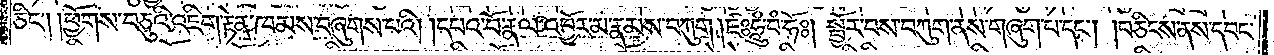ཅིང༌། །ཕྱོགས་བཅུའི་འཇིག་རྟེན་ཁམས་བཞུགས་པའི། །དཔའ་བོ་རྣལ་འབྱོར་མ་རྣམས་བཀུག །ཛཿཧཱུཾ་བཾ་ཧོཿ། སྦྱོར་བས་བཀུག་ནས་གཞུག་པ་དང༌། །བཅིངས་ནས་དབང་
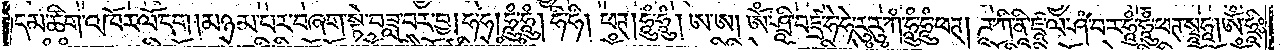དམ་ཚིག་འཁོར་ལོ་དག །མཉམ་པར་བཞག་སྟེ་བཟླ་བར་བྱ། ཧ་ཧ། ཧཱུཾ་ཧཱུཾ། ཧི་ཧི། ཕཊ། ཧཱུཾ་ཧཱུཾ། ཨ་ཨ། ཨོཾ་ཤྲཱི་བཛྲ་ཧེ་ཧེ་རུ་རུ་ཀི་ཧཱུཾ་ཧཱུཾ་ཕཊ། ཌཱ་ཀི་ནཱི་ཛཱ་ལ་ཤཾ་བ་ར་ཧཱུཾ་ཧཱུཾ་ཕཊ་སྭཱཧཱ། ཨོཾ་ཧྲཱིཿ
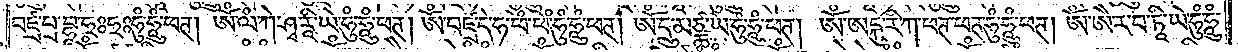བཛྲ་པྲ་བྷཱ་ཧྲཿཧྲཿཧུཾ་ཧཱུཾ་ཕཊ། ཨོཾ་ལཾ་ཀེ་ཤྭ་རཱི་ཡེ་ཧུཾ་ཧཱུཾ་ཕཊ། ཨོཾ་བཛྲ་དེ་ཧ་ཕེཾ་ཕེཾ་ཧུཾ་ཧཱུཾ་ཕཊ། ཨོཾ་དྲུ་མཙྪ་ཡེ་ཧུཾ་ཧཱུཾ་ཕཊ། ཨོཾ་ཨངྐུ་རི་ཀ་ཕཊ་ཕཊ་ཧུཾ་ཧཱུཾ་ཕཊ། ཨོཾ་ཨཻ་ར་བ་ཏཱི་ཡེ་ཧུཾ་ཧཱུཾ་
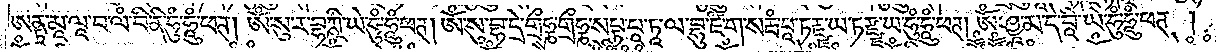ཨནྟྲ་མཱ་ལཱ་བ་ལཾ་བི་ནི་ཧུཾ་ཧཱུཾ་ཕཊ། ཨོཾ་སུ་ར་བྷཀྵི་ཡེ་དུཾ་ཧཱུཾ་ཕཊ། ཨོཾ་སུ་བྷ་དེ་གྲྀཧྞ་གྲྀཧྞ་སཔྟ་པཱ་ཏཱ་ལ་བྷུ་ཛཾ་ག་སརྦཾ་པཱ་ཏརྫྫ་ཡ་ཏ་རྫྫ་ཡ་ཧུཾ་ཧཱུཾ་ཕཊ། ཨོཾ་ཤྱ་མ་དེ་བཱི་ཡེ་ཧུཾ་ཧཱུཾ་ཕཊ་།
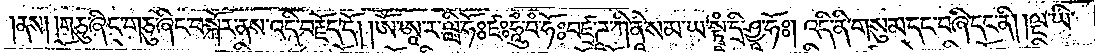ནས༑ ༑གཅུ་ཞིང་གཅུ་ཞིང་བསྐོར་ནས་འདི་བརྗོད་དོ། །ཨོཾ་ཨཱ་ར་ལླི་ཧོཿ ཛཿ ཧཱུཾ་བཾ་ཧོཿ བཛྲ་ཌཱ་ཀི་ནཱི་ས་མ་ཡ་སྟྭཱཾ་དྲི་ཤྱཱ་ཧོཿ། འདི་ནི་གསུམ་དང་བཞི་དང་ནི། །ལྔ་ཡི་
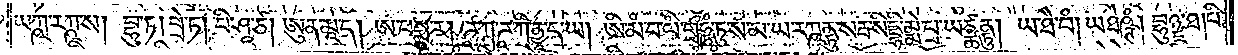ཡཀྵ་རཀྵ་ས། བྷུ་ཏ། པྲེ་ཏ། པི་ཤཱ་ཙ། ཨུན་མཱ་ད། ཨ་པསྨཱ་ར། ཌཱ་ཀ་ཌཱ་ཀི་ནྱ་ད་ཡ། ཨི་མཾ་བ་ལཾ་གྲྀཧྞ་ཏུ་ས་མ་ཡ་རཀྵནྟུ་སརྦ་སིདྡྷི་མྨེ་པྲ་ཡཙྪནྟུ། ཡ་ཐཻ་བཾ། ཡ་ཐེཥྚཾ། བྷུཉྫ་ཐ། པི་
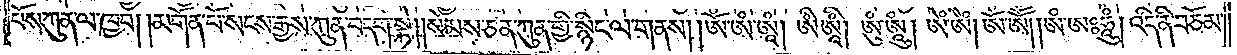པོས་ཀུན་ལ་ཁྱབ། །མགོན་པོ་སངས་རྒྱས་ཀུན་བདག་སྟེ། །སེམས་ཅན་ཀུན་གྱི་སྙིང་ལ་གནས། །ཨོཾ་ཨཾ་ཨཱཾ། ཨི་ཨཱིཾ། ཨུཾ་ཨཱུཾ། ཨེཾ་ཨཻཾ། ཨོཾ་ཨཽཾ། །ཨཾ་ཨཿ ཧཱུཾ། འདི་ནི་བཅོམ་
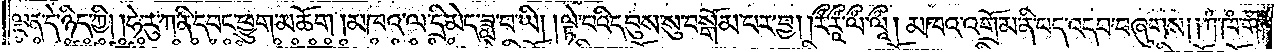ལྡན་དེ་ཉིད་ཀྱི། །ཧེ་རུ་ཀ་ནི་དབང་ཕྱུག་མཆོག །མཁའ་ལ་དྲི་མེད་ཟླ་བ་ཡི། །ལྟེ་བའི་དབུས་སུ་བསྒོམ་པར་བྱ། །རྀཾ་རཱྀཾ་ལྀཾ་ལཱྀཾ། མཁའ་འགྲོ་མ་ནི་པད་འདབ་བཞུགས། །ཀཾ་ཁཾ་གཾ་
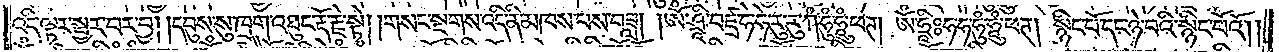འདི་ལྟར་སྦྱར་བར་བྱ། །དབུས་སུ་ཁྲག་འཐུང་རྡོ་རྗེ་སྟེ། །གསང་སྔགས་འདི་ནི་མཁས་པས་བཟླ། །ཨོཾ་ཤྲཱི་བཛྲ་ཧེ་ཧེ་རུ་རུ་ཀཾ་ཧཱུཾ་ཧཱུཾ་ཕཊ། ཨོཾ་ཧྲཱིཿ ཧ་ཧ་ཧུཾ་ཧཱུཾ་ཕཊ། སྙིང་པོ་དང་ཉེ་བའི་སྙིང་པོའོ། །
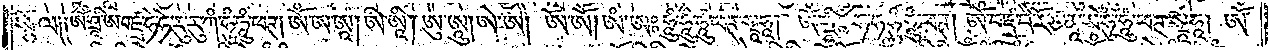སྩོལ༑ ༑ཨོཾ་ཤྲཱི་ཨ་བཛྲ་ཧེ་ཧེ་རུ་རུ་ཀཾ་ཧུཾ་ཧཱུཾ་ཕཊ། ཨོཾ་ཨ་ཨཱ། ཨི་ཨཱི། ཨུ་ཨཱུ་ཨེ་ཨཻ། ཨོ་ཨཽ། ཨཾ་ཨཿ ཧཱུཾ་ཧཱུཾ་ཧཱུཾ་ཕཊ་སྭཱཧཱ། ཨོཾ་ཧྲཱིཿ ཧ་ཧ་ཧུཾ་ཧཱུཾ་ཕཊ། ཨོཾ་བཛྲ་བཻ་རོ་ཙ་ནཱ་ཡེ་ཧུཾ་ཧཱུཾ་ཕཊ་སྭཱཧཱ། ཨོཾ་
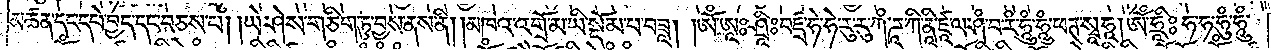མཚན་དང་དཔེ་བྱད་དང་བཅས་པ། །ཡེ་ཤེས་གཅིག་ཏུ་བྱས་ནས་ནི། །མཁའ་འགྲོ་མ་ཡི་སྡོམ་པ་བཟླ། །ཨོཾ་ཨཱཿ ཤྲཱིཿ བཛྲ་ཧེ་ཧེ་རུ་རུ་ཀཾ་ཌཱ་ཀི་ནཱི་ཛཱ་ལ་ཤཾ་བ་རཾ་ཧཱུཾ་ཧཱུཾ་ཕཊ་སྭཱཧཱ། ཨོཾ་ཧྲཱིཿ ཧ་ཧ་ཧུཾ་ཧཱུཾ་
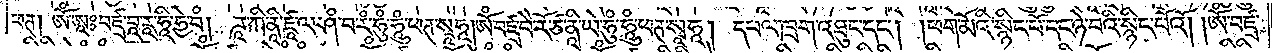ཕཊ། ཨོཾ་ཨཱཿབཛྲ་བཱ་རཱ་ཧཱི་ཧྱེ་བཾ། ཌཱ་ཀི་ནཱི་ཛཱ་ལ་ཤཾ་བ་རཾ་ཧུཾ་ཧཱུཾ་ཕཊ་སྭཱཧཱ་།ཨོཾ་བཛྲ་བཻ་རོ་ཙ་ནཱི་ཡེ་ཧུཾ་ཧཱུཾ་ཕཊ་སྭཱཧཱ། དཔལ་ཁྲག་འཐུང་དང༌། །ཕག་མོའི་སྙིང་པོ་དང་ཉེ་བའི་སྙིང་པོའོ། །ཨོཾ་བཛྲ་
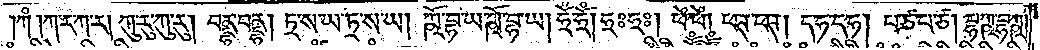ཀཾ །ཀ་ར་ཀ་ར། ཀུ་རུ་ཀུ་རུ། བནྡྷ་བནྡྷ། ཏྲ་ས་ཡ་ཏྲ་ས་ཡ། ཀྵོ་བྷ་ཡ་ཀྵོ་བྷ་ཡ། ཧྲོཾ་ཧྲོཾ། ཧྲཿཧྲཿ། ཕེཾ་ཕེཾ། ཕཊ་ཕཊ། ད་ཧ་ད་ཧ། པ་ཙ་པ་ཙ། བྷཀྵ་བྷཀྵ་
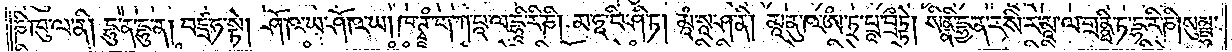ཎི་ཁུ་ལ་ནི། དྷུ་ན་དྷུ་ན། བཛྲ་ཧ་སྟེ། ཤོ་ཥ་ཡ་ཤོ་ཥ་ཡ། ཁ་ཊྭཱཾ་ག་ཀ་པཱ་ལ་དྷཱི་རི་ཎི། མ་ཧཱ་བི་ཤི་ཏ། མཱཾ་སཱ་ཤ་ནི། མཱ་ནུ་ཥ་ཨཾ་ཏྲ་པྲཱ་བྲྀཏྟེ། སིནྣི་དྱ་ན་ར་སི་ར་མཱ་ལ་གྲནྠི་ཏ་དྷ་རི་ཎི། སུམྦྷ་
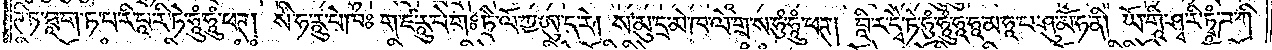ཊི་ཏ་ཐཱ་ག་ཏ་པ་རི་པཱ་རི་ཏེ་ཧཱུཾ་ཧཱུཾ་ཕཊ། སི་ཧ་རཱུ་པེ་ཁཿ ག་ཛ་རཱུ་པེ་གཿ ཏྲཻ་ལོ་ཀྱ་ཨུ་ད་རེ། ས་མུ་དྲ་མེ་ཁ་ལེ་གྲ་ས་ཧུཾ་ཧཱུཾ་ཕཊ། བཱི་ར་དྭཻ་ཏེ་ཧུཾ་ཧཱུཾ་ཧཱ་ཧཱ་མ་ཧཱ་པ་ཤུ་མོ་ཧ་ནི། ཡོ་གཱི་ཤྭ་རི་ཏྭཱཾ་ཌ་ཀི་
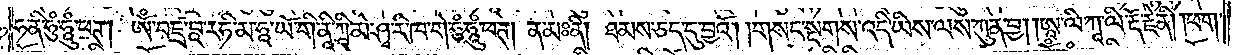ཧ་ནི་ཧུཾ་ཧཱུཾ་ཕཊ། ཨོཾ་བཛྲ་པཱ་ར་ཧི་མ་ཧཱ་ཡོ་གི་ནཱི་ཀཱི་མེ་ཤྭ་རི་ཁ་གེ་ཧུཾ་ཧཱུཾ་ཕཊ། ན་མཿནི། ཐམས་ཅད་དུ་བྱའོ། །གསང་སྔགས་འདི་ཡིས་ལས་ཀུན་བྱ། །ཨཱ་ལི་ཀཱ་ལི་རྡོ་རྗེ་ནི། །ཕག་
